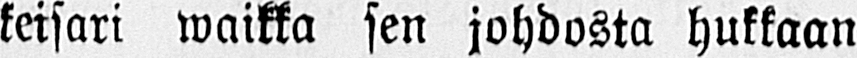keisari waikka sen johdosta hukkaan
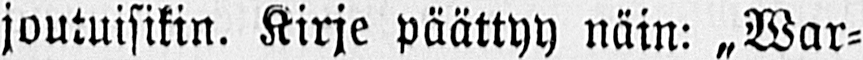joutuisikin. Kirje päättyy näin: „War-
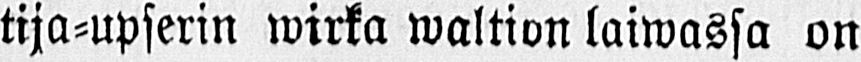tija-upserin wirka waltion laiwassa on
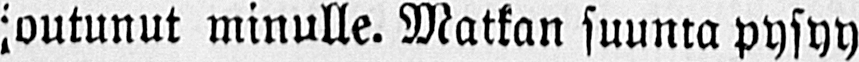joutunut minulle. Matkan suunta pysyy
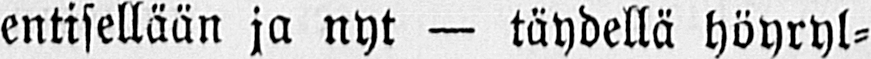entisellään ja nyt - täydellä höyryl-
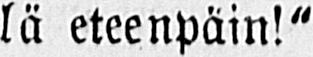lä eteenpäin!"
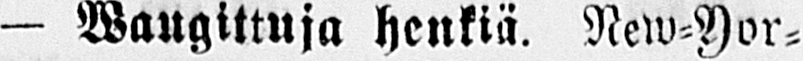— waugittuja henkiä. New-Yor-
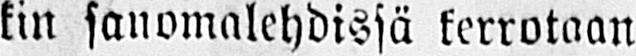kin sanomalehdissä kerrotaan
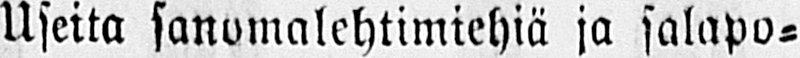Useita sanomalehtimiehiä ja salapo-
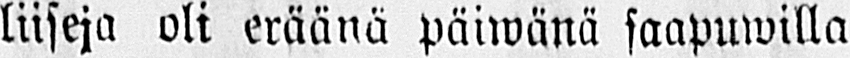liiseja oli eräänä päiwänä saapuwilla
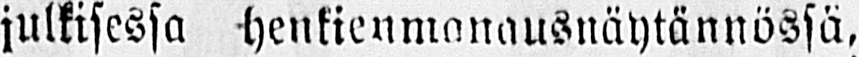julkisessa henkienmanausnäytännössä,
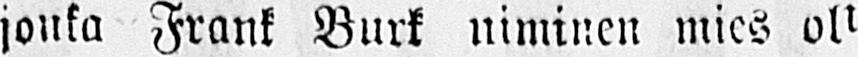jouka Frank Burk uiminen mies oli
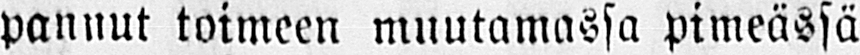pannut toimeen muutamassa pimeässä
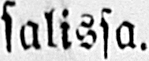salissa.
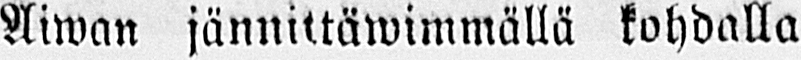Aiwan jännittäwimmällä kohdalla
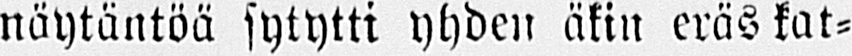näytäntöä sytytti yhden äkin eräs kat-
